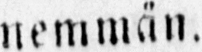nemmän.
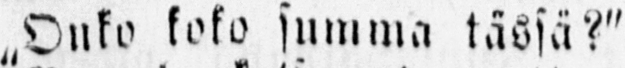„Onko koko summa tässä?"
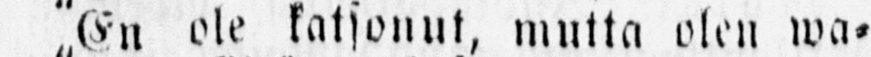„En ole katsonut, mutta olen wa-
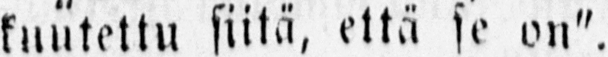kuutettu siitä, että se on".
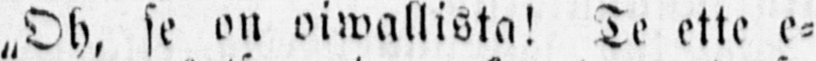„Oh, se on oiwallista! Te ette e-
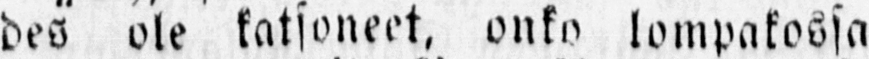des ole katsoneet, onko lompakossa
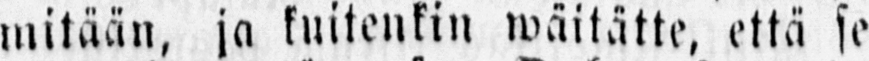mitään, ja kuitenkin wäitätte, että se
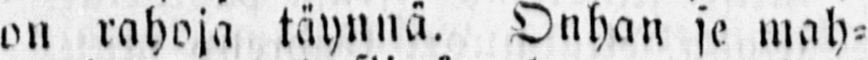on rahoja täynnä. Onhan se mah-
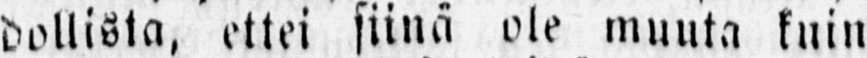dollista, ettei siinä ole muuta kuin
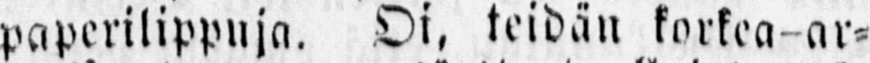paperilippuja. Oi, teidän korkea-ar-
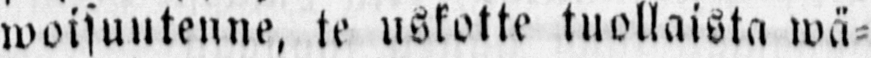woisuutenne, te uskotte tuollaista wä-
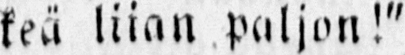keä liian paljon!"
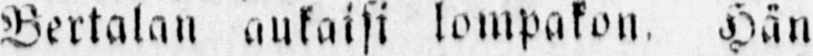Bertalan aukaisi lompakon. Hän
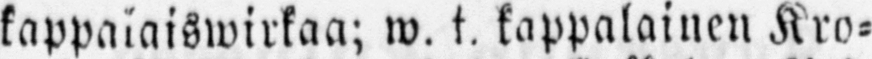kappalaiswirkaa; w. t. kappalainen Kro-
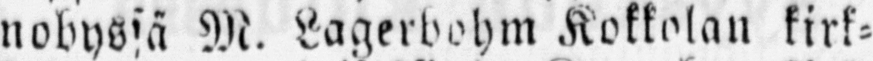nobyssä M. Lagerbohm Kokkolan kirk-
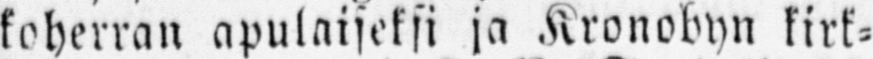koherran apulaiseksi ja Kronobyn kirk-
